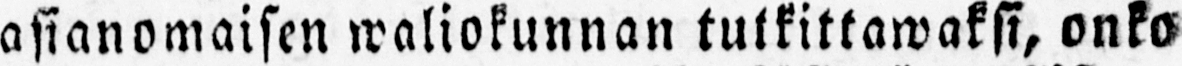asianomaisen waliokunnan tulkittawaksi, onko
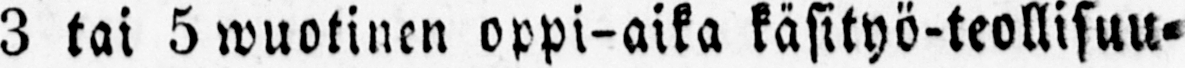3 tai 5 wuotinen oppi-aika käsityö-teollisuu-
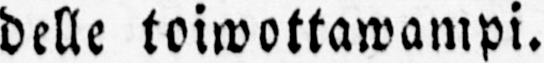delle toiwottawampi.
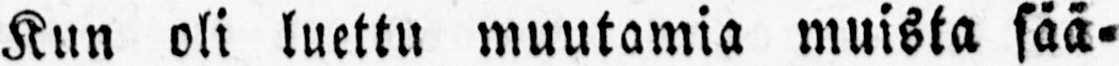Kun oli luettu muutamia muista sää-
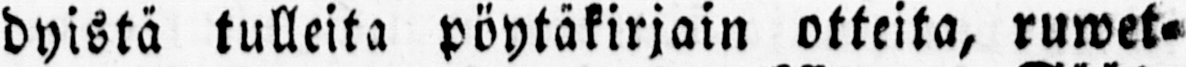dyistä tulleita pöytäkirjain otteita, ruwet-
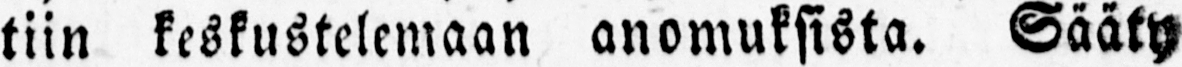tiin keskustelemaan anomuksista. Sääty
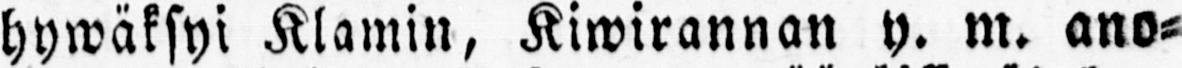hywäksyi Klamin, Kiwirannan y. m. ano-
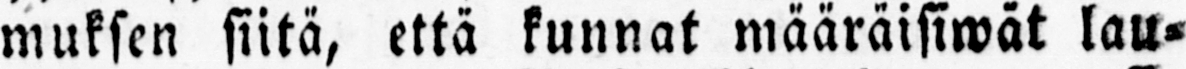muksen siitä, että kunnat määräisiwät lau-
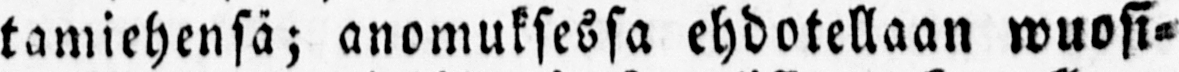tamiehensä; anomuksessa ehdotellaan wuosi-
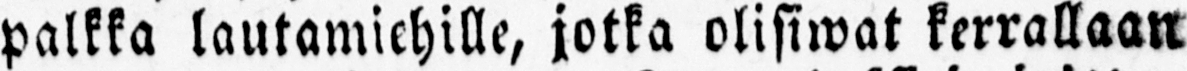palkka lautamiehille, jotka olisiwat kerrallaan
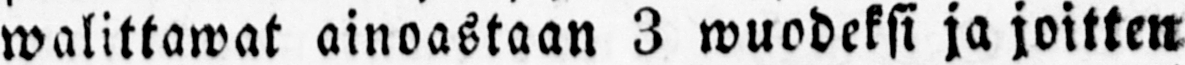walittawat ainoastaan 3 wuodeksi ja joitten
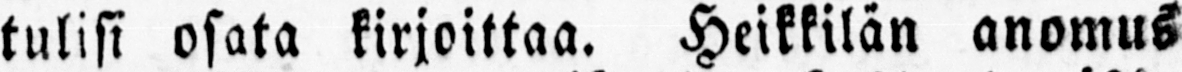tulisi osata kirjoittaa. Heikkilän anomus
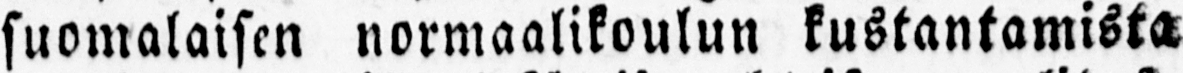suomalaisen normaalikoulun kustantamista
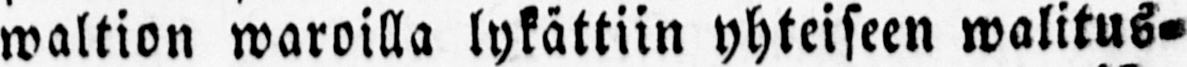waltion waroilla lykättiin yhteiseen walitus-
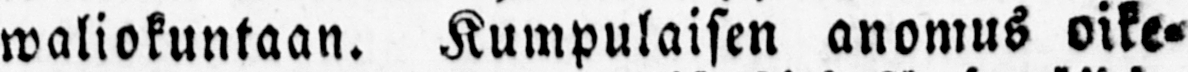waliokuntaan. Kumpulaisen anomus oike-
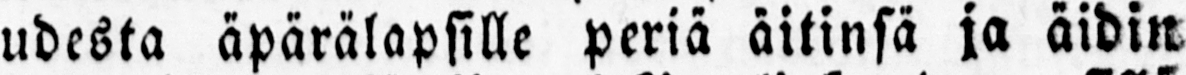udesta äpärälapsille periä äitinsä ja äidin
